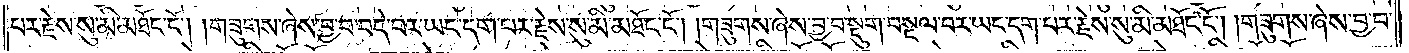པར་རྗེས་སུ་མི་མཐོང་ངོ༌། །གཟུགས་ཞེས་བྱ་བ་བདེ་བར་ཡང་དག་པར་རྗེས་སུ་མི་མཐོང་ངོ༌། །གཟུགས་ཞེས་བྱ་བ་སྡུག་བསྔལ་བར་ཡང་དག་པར་རྗེས་སུ་མི་མཐོང་ངོ༌། །གཟུགས་ཞེས་བྱ་བ་
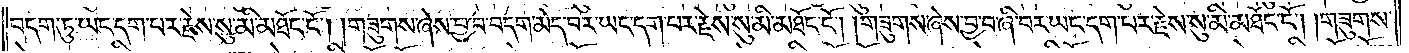བདག་ཏུ་ཡང་དག་པར་རྗེས་སུ་མི་མཐོང་ངོ༌། །གཟུགས་ཞེས་བྱ་བ་བདག་མེད་བར་ཡང་དག་པར་རྗེས་སུ་མི་མཐོང་ངོ༌། །གཟུགས་ཞེས་བྱ་བ་ཞི་བར་ཡང་དག་པར་རྗེས་སུ་མི་མཐོང་ངོ༌། །གཟུགས་
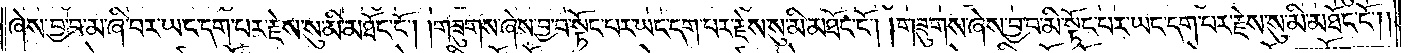ཞེས་བྱ་བ་མ་ཞི་བར་ཡང་དག་པར་རྗེས་སུ་མི་མཐོང་ངོ༌། །གཟུགས་ཞེས་བྱ་བ་སྟོང་པར་ཡང་དག་པར་རྗེས་སུ་མི་མཐོང་ངོ༌། །གཟུགས་ཞེས་བྱ་བ་མི་སྟོང་པར་ཡང་དག་པར་རྗེས་སུ་མི་མཐོང་ངོ༌༎
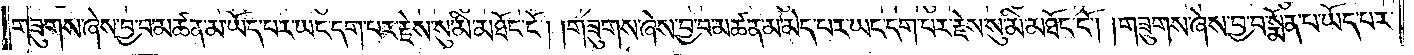གཟུགས་ཞེས་བྱ་བ་མཚན་མ་ཡོད་པར་ཡང་དག་པར་རྗེས་སུ་མི་མཐོང་ངོ༌། །གཟུགས་ཞེས་བྱ་བ་མཚན་མ་མེད་པར་ཡང་དག་པར་རྗེས་སུ་མི་མཐོང་ངོ༌། །གཟུགས་ཞེས་བྱ་བ་སྨོན་པ་ཡོད་པར་
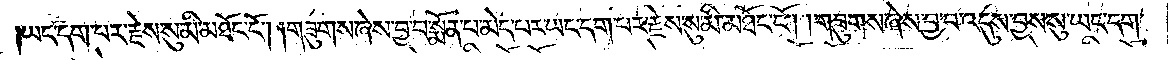ཡང་དག་པར་རྗེས་སུ་མི་མཐོང་ངོ༌། །གཟུགས་ཞེས་བྱ་བ་སྨོན་པ་མེད་པར་ཡང་དག་པར་རྗེས་སུ་མི་མཐོང་ངོ༌། །གཟུགས་ཞེས་བྱ་བ་འདུས་བྱས་སུ་ཡང་དག་
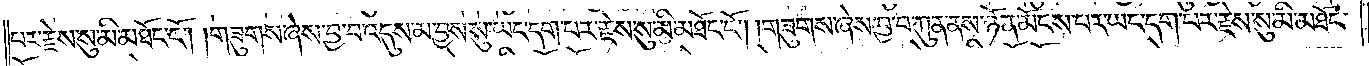པར་རྗེས་སུ་མི་མཐོང་ངོ༌། །གཟུགས་ཞེས་བྱ་བ་འདུས་མ་བྱས་སུ་ཡང་དག་པར་རྗེས་སུ་མི་མཐོང་ངོ༌། །གཟུགས་ཞེས་བྱ་བ་ཀུན་ནས་ཉོན་མོངས་པར་ཡང་དག་པར་རྗེས་སུ་མི་མཐོང་
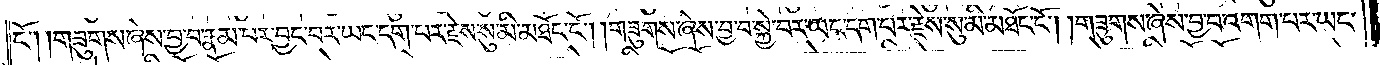ངོ༌། །གཟུགས་ཞེས་བྱ་བ་རྣམ་པར་བྱང་བར་ཡང་དག་པར་རྗེས་སུ་མི་མཐོང་ངོ༌། །གཟུགས་ཞེས་བྱ་བ་སྐྱེ་བར་ཡང་དག་པར་རྗེས་སུ་མི་མཐོང་ངོ༌། །གཟུགས་ཞེས་བྱ་བ་འགག་པར་ཡང་
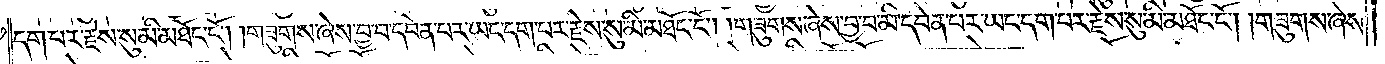དག་པར་རྗེས་སུ་མི་མཐོང་ངོ༌། །གཟུགས་ཞེས་བྱ་བ་དབེན་པར་ཡང་དག་པར་རྗེས་སུ་མི་མཐོང་ངོ༌། །གཟུགས་ཞེས་བྱ་བ་མི་དབེན་པར་ཡང་དག་པར་རྗེས་སུ་མི་མཐོང་ངོ༌། །གཟུགས་ཞེས་
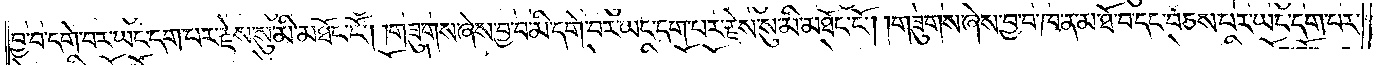བྱ་བ་དགེ་བར་ཡང་དག་པར་རྗེས་སུ་མི་མཐོང་ངོ༌། །གཟུགས་ཞེས་བྱ་བ་མི་དགེ་བར་ཡང་དག་པར་རྗེས་སུ་མི་མཐོང་ངོ༌། །གཟུགས་ཞེས་བྱ་བ་ཁ་ན་མ་ཐོ་བ་དང་བཅས་པར་ཡང་དག་པར་
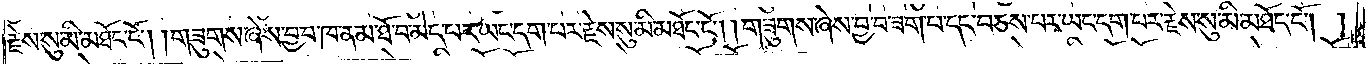རྗེས་སུ་མི་མཐོང་ངོ༌། །གཟུགས་ཞེས་བྱ་བ་ཁ་ན་མ་ཐོ་བ་མེད་པར་ཡང་དག་པར་རྗེས་སུ་མི་མཐོང་ངོ༌། །གཟུགས་ཞེས་བྱ་བ་ཟག་པ་དང་བཅས་པར་ཡང་དག་པར་རྗེས་སུ་མི་མཐོང་ངོ༌། །
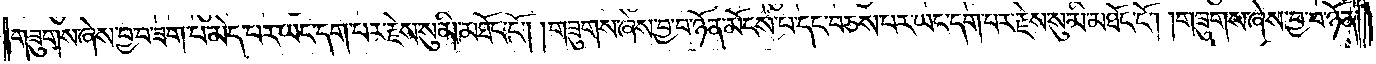གཟུགས་ཞེས་བྱ་བ་ཟག་པ་མེད་པར་ཡང་དག་པར་རྗེས་སུ་མི་མཐོང་ངོ༌། །གཟུགས་ཞེས་བྱ་བ་ཉོན་མོངས་པ་དང་བཅས་པར་ཡང་དག་པར་རྗེས་སུ་མི་མཐོང་ངོ༌། །གཟུགས་ཞེས་བྱ་བ་ཉོན་
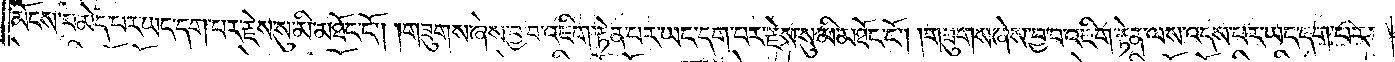མོངས་པ་མེད་པར་ཡང་དག་པར་རྗེས་སུ་མི་མཐོང་ངོ༌། །གཟུགས་ཞེས་བྱ་བ་འཇིག་རྟེན་པར་ཡང་དག་པར་རྗེས་སུ་མི་མཐོང་ངོ༌། །གཟུགས་ཞེས་བྱ་བ་འཇིག་རྟེན་ལས་འདས་པར་ཡང་དག་པར་
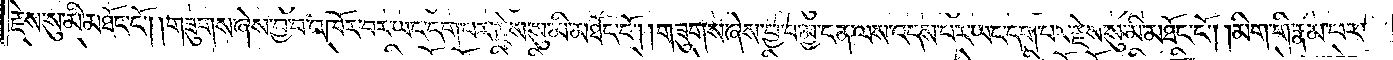རྗེས་སུ་མི་མཐོང་ངོ༌། །གཟུགས་ཞེས་བྱ་བ་འཁོར་བར་ཡང་དག་པར་རྗེས་སུ་མི་མཐོང་ངོ༌། །གཟུགས་ཞེས་བྱ་བ་མྱ་ངན་ལས་འདས་པར་ཡང་དག་པར་རྗེས་སུ་མི་མཐོང་ངོ༌། །མིག་གི་རྣམ་པར་
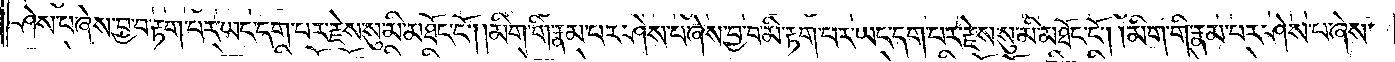ཤེས་པ་ཞེས་བྱ་བ་རྟག་པར་ཡང་དག་པར་རྗེས་སུ་མི་མཐོང་ངོ༌། །མིག་གི་རྣམ་པར་ཤེས་པ་ཞེས་བྱ་བ་མི་རྟག་པར་ཡང་དག་པར་རྗེས་སུ་མི་མཐོང་ངོ༌། །མིག་གི་རྣམ་པར་ཤེས་པ་ཞེས་
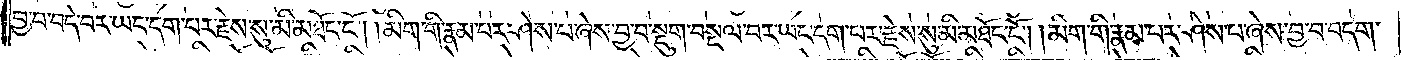བྱ་བ་བདེ་བར་ཡང་དག་པར་རྗེས་སུ་མི་མཐོང་ངོ༌། །མིག་གི་རྣམ་པར་ཤེས་པ་ཞེས་བྱ་བ་སྡུག་བསྔལ་བར་ཡང་དག་པར་རྗེས་སུ་མི་མཐོང་ངོ༌། །མིག་གི་རྣམ་པར་ཤེས་པ་ཞེས་བྱ་བ་བདག་
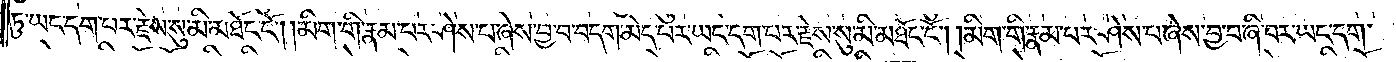ཏུ་ཡང་དག་པར་རྗེས་སུ་མི་མཐོང་ངོ༌། །མིག་གི་རྣམ་པར་ཤེས་པ་ཞེས་བྱ་བ་བདག་མེད་པར་ཡང་དག་པར་རྗེས་སུ་མི་མཐོང་ངོ༌། །མིག་གི་རྣམ་པར་ཤེས་པ་ཞེས་བྱ་བ་ཞི་བར་ཡང་དག་
